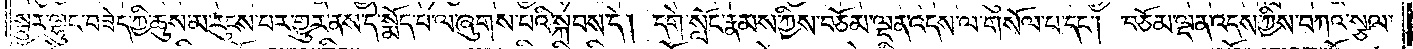སྦྱར་ལྷུང་བཟེད་ཀྱི་ཆུས་མ་རུངས་པར་གྱུར་ནས་དེ་སྨོད་པ་ལ་ཞུགས་པའི་སྐབས་དེ། དགེ་སློང་རྣམས་ཀྱིས་བཅོམ་ལྡན་འདས་ལ་གསོལ་པ་དང༌། བཅོམ་ལྡན་འདས་ཀྱིས་བཀའ་སྩལ་
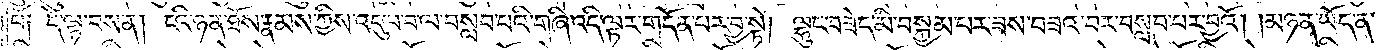པ༑ དེ་ལྟ་བས་ན། ངའི་ཉན་ཐོས་རྣམས་ཀྱིས་འདུལ་བ་ལ་བསླབ་པའི་གཞི་འདི་ལྟར་གདོན་པར་བྱ་སྟེ། ལྷུང་བཟེད་མི་བསྐྱམ་པར་ཟས་བཟའ་བར་བསླབ་པར་བྱའོ། །མཉན་ཡོད་ན་
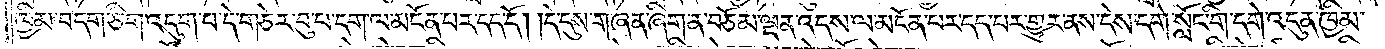ཁྱིམ་བདག་ཅིག་འདུག་པ་དེ་གཅེར་བུ་པ་དག་ལ་མངོན་པར་དད་དོ། །དེ་དུས་གཞན་ཞིག་ན་བཅོམ་ལྡན་འདས་ལ་མངོན་པར་དད་པར་གྱུར་ནས་དེས་དགེ་སློང་གི་དགེ་འདུན་ཁྱིམ་
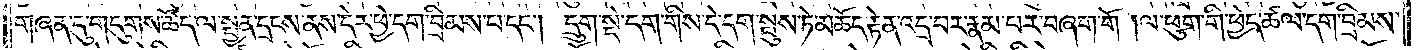གཞན་དུ་གདུགས་ཚོད་ལ་སྤྱན་དྲངས་ནས་དེར་ཕྱེ་དག་བྲིམས་པ་དང༌། དྲུག་སྡེ་དག་གིས་དེ་དག་སྤུས་ཏེ་མཆོད་རྟེན་འདྲ་བར་རྣམ་པར་བཞག་གོ །ལ་ཕུག་གི་ཕྱེད་ཚལ་དག་བྲིམས་
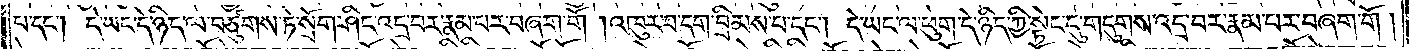པ་དང༌། དེ་ཡང་དེ་ཉིད་ལ་བཙུགས་ཏེ་སྲོག་ཤིང་འདྲ་བར་རྣམ་པར་བཞག་གོ །འཁུར་བ་དག་བྲིམས་པ་དང༌། དེ་ཡང་ལ་ཕུག་དེ་ཉིད་ཀྱི་སྟེང་དུ་གདུགས་འདྲ་བར་རྣམ་པར་བཞག་གོ །
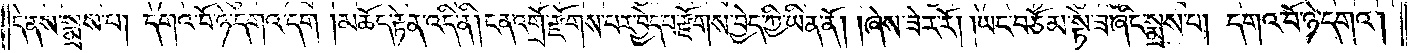དེ་ནས་སྨྲས་པ། དགའ་བོ་ཉེ་དགའ་དག །མཆོད་རྟེན་འདི་ནི། ངན་འགྲོ་རྫོགས་པར་བྱེད་པ་རྫོགས་བྱེད་ཀྱི་ཡིན་ནོ། །ཞེས་ཟེར་རོ། །ཡང་བཅོམ་སྟེ་ཟ་ཞིང་སྨྲས་པ། དགའ་བོ་ཉེ་དགའ།
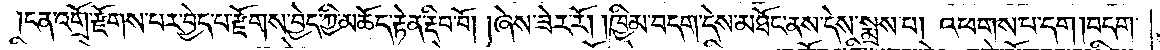ངན་འགྲོ་རྫོགས་པར་བྱེད་པ་རྫོགས་བྱེད་ཀྱི་མཆོད་རྟེན་རྡིབ་བོ། །ཞེས་ཟེར་རོ། །ཁྱིམ་བདག་དེས་མཐོང་ནས་དེས་སྨྲས་པ། འཕགས་པ་དག །བདག་
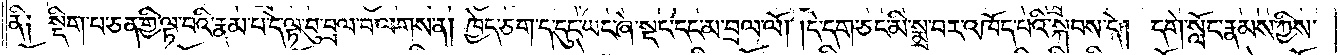ནི༑ སྡིག་པ་ཅན་གྱི་ལྟ་བའི་རྣམ་པ་དེ་ལྟ་བུ་བྲལ་བ་ལགས་ན། ཁྱེད་ཅག་ད་དུང་ཡང་ཞེ་སྡང་དང་མ་བྲལ་ལོ། །དེ་དག་ཅང་མི་སྨྲ་བར་འཁོད་པའི་སྐབས་དེ། དགེ་སློང་རྣམས་ཀྱིས་
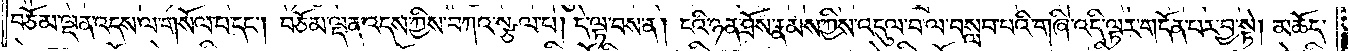བཅོམ་ལྡན་འདས་ལ་གསོལ་པ་དང༌། བཅོམ་ལྡན་འདས་ཀྱིས་བཀའ་སྩལ་པ། དེ་ལྟ་བས་ན། ངའི་ཉན་ཐོས་རྣམས་ཀྱིས་འདུལ་བ་ལ་བསླབ་པའི་གཞི་འདི་ལྟར་གདོན་པར་བྱ་སྟེ། མཆོད་
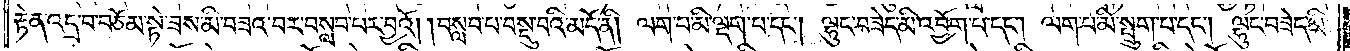རྟེན་འདྲ་བ་བཅོམ་སྟེ་ཟས་མི་བཟའ་བར་བསླབ་པར་བྱའོ། །བསླབ་པ་བསྡུ་བའི་མདོ་ནི། ལག་པ་མི་ལྡག་པ་དང༌། ལྷུང་བཟེད་མི་འབྱོག་པ་དང༌། ལག་པ་མི་སྤྲུག་པ་དང༌། ལྷུང་བཟེད་མི་
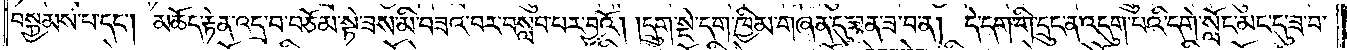བསྐྱམས་པ་དང༌། མཆོད་རྟེན་འདྲ་བ་བཅོམ་སྟེ་ཟས་མི་བཟའ་བར་བསླབ་པར་བྱའོ། །དྲུག་སྡེ་དག་ཁྱིམ་གཞན་དུ་ཟན་ཟ་བ་ན། དེ་དག་གི་དྲུང་ན་འདུག་པའི་དགེ་སློང་མང་དུ་ཟ་བ་
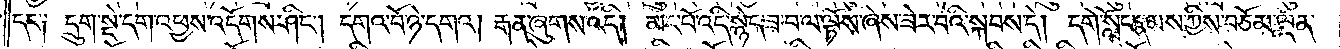དང༌། དྲུག་སྡེ་དག་འཕྱས་འདོགས་ཤིང༌། དགའ་བོ་ཉེ་དགའ། རྒན་ཞུགས་འདི། མང་པོ་འདི་སྙེད་ཟ་བ་ལ་ལྟོས་ཞེས་ཟེར་བའི་སྐབས་དེ། དགེ་སློང་རྣམས་ཀྱིས་བཅོམ་ལྡན་
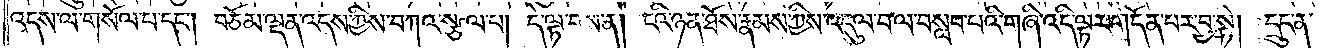འདས་ལ་གསོལ་པ་དང༌། བཅོམ་ལྡན་འདས་ཀྱིས་བཀའ་སྩལ་པ། དེ་ལྟ་བས་ན། ངའི་ཉན་ཐོས་རྣམས་ཀྱིས་འདུལ་བ་ལ་བསླབ་པའི་གཞི་འདི་ལྟར་གདོན་པར་བྱ་སྟེ། དྲུང་ན་
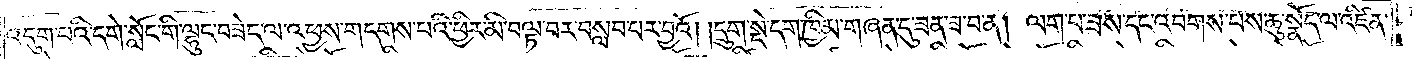འདུག་པའི་དགེ་སློང་གི་ལྷུང་བཟེད་ལ་འཕྱས་གདགས་པའི་ཕྱིར་མི་བལྟ་བར་བསླབ་པར་བྱའོ། །དྲུག་སྡེ་དག་ཁྱིམ་གཞན་དུ་ཟན་ཟ་བ་ན། ལག་པ་ཟས་དང་འབགས་པས་ཆུ་སྣོད་ལ་འཛིན་
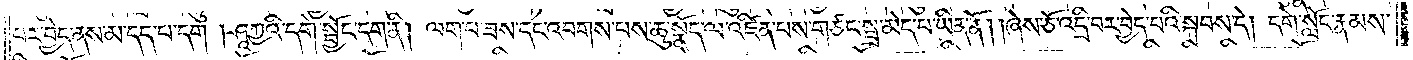པར་བྱེད་ནས་མ་དད་པ་དག །ཤཱཀྱའི་དགེ་སྦྱོང་དག་ནི། ལག་པ་ཟས་དང་འབགས་པས་ཆུ་སྣོད་ལ་འཛིན་པས་གཙང་སྦྲ་མེད་པ་ཡིན་ནོ། །ཞེས་ཅོ་འདྲི་བར་བྱེད་པའི་སྐབས་དེ། དགེ་སློང་རྣམས་
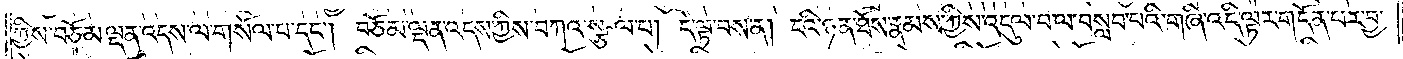ཀྱིས་བཅོམ་ལྡན་འདས་ལ་གསོལ་པ་དང༌། བཅོམ་ལྡན་འདས་ཀྱིས་བཀའ་སྩལ་པ། དེ་ལྟ་བས་ན། ངའི་ཉན་ཐོས་རྣམས་ཀྱིས་འདུལ་བ་ལ་བསླབ་པའི་གཞི་འདི་ལྟར་གདོན་པར་བྱ་
